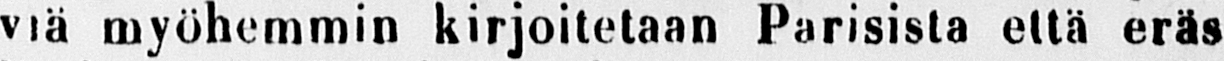viä myhöhemmin kirjoitetaan Parisista että eräs
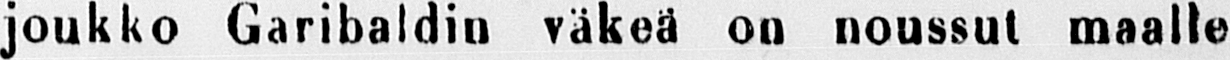joukko Garibaldin väkeä on noussut maalle
